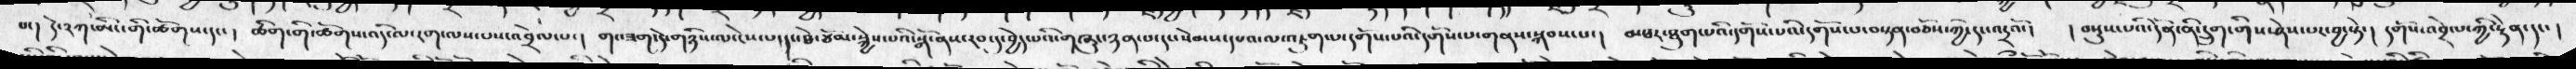པ་།  དེ་༢ཀ་མིང་གི་ཚོགས་དང་། ཚིག་གི་ཚོགས་འདི་རག་ལས་པས་འབྲེལ་པ་། གང་ཟག་དེ་གཉིས་ལ་ངེས་པ་དང་ཐེ་ཚོམ་སྐྱེས་པི་སྒོ་ནས་རབ་དུ་བྱེད་པའི་གཞུང་ཉན་པ་དང་སེམས་དཔའ་ལ་འཇུག་པ་དགོས་པའི་དགོས་པ་གནས་སྐབས་པ་།  མཐར་ཐུག་པའི་དགོས་པའི་དགོས་པ་བསྟན་བཅོས་ཀྱེ་དང་འདྲའོ་།  ། བསྡུས་པའི་དོན་དྲུག་གིས་ཉེས་པར་བྱ་སྟེ་།  དགོས་འབྲེལ་ཀྱི་རྟེན་དང་།
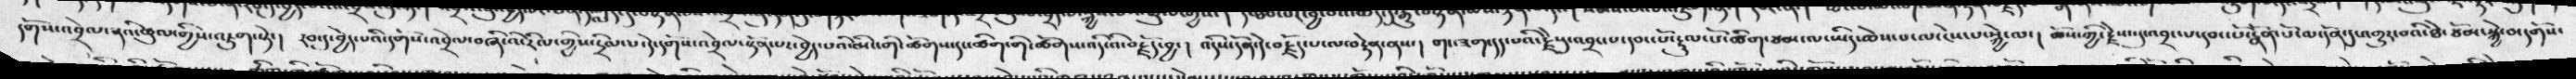དགོས་འབྲེལ་སྣའི་ཚུལ་གྱིས་འཇུག་སྟེ་།  རབ་དུ་བྱེད་པའི་དགོས་འབྲེལ་བཞིའི་རིལ་གྱིས་དྲིལ་པ་དེ་དགོས་འབྲེལ་སྟོན་པར་བྱེད་པའི་མིང་གི་ཚོགས་དང་ཚིག་གི་ཚོགས་འདི་འི་བརྗོད་བྱ་།  འདིས་དོན་དེ་བརྗོད་པ་ལ་བརྟེན་ནས་།  གང་ཟག་དད་པའི་རྗེས་སུ་འབྲང་པ་དབང་པོ་རྟུལ་པོ་ཚིག་ཙམ་ལ་ཡིད་ཆེས་པ་ལ་ངེས་པ་སྐྱེ་ལ་།  ཆོས་ཀྱི་རྗེས་སུ་འབྲང་པ་དབང་པོ་རྣོན་པོ་ལ་དོན་དུ་འགྱུར་བའི་ཐེ་ཚོམ་སྐྱེ་བ་དགོས་
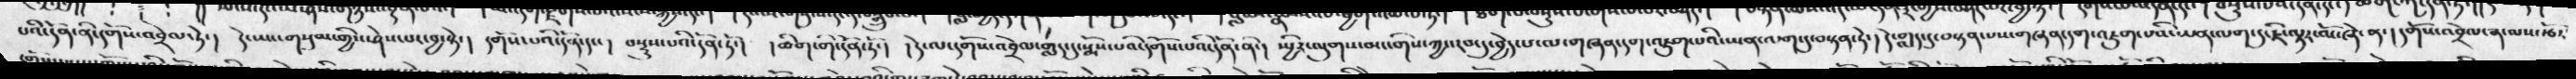པའི་དོན་ནི་དགོས་འབྲེལ་ཏེ་།  དེ་ཡང་གསུམ་གྱིས་ཤེས་པར་བྱ་སྟེ་།  དགོས་པའི་དོན་དང་།  བསྡུས་པའི་དོན་ཏོ་།  །ཚིག་གི་དོན་ཏོ་།  །དེ་ལ་དགོས་འབྲེལ་གླད་དུ་སྨོས་པའི་དགོས་པའི་དོན་ནི་།  སྤྱིར་ལུགས་མང་གིས་ཀྱང་རབ་དུ་བྱེད་པ་ལ་གཞན་དག་འཇུག་པའི་ཡན་ལག་དུ་བསྟན་ཏེ་།  དེ་གླད་དུ་བསྟན་པས་གཞན་དག་འཇུག་པའི་ཡན་ལག་དུ་ཇི་ལྟར་མོ་ཞེ་ན་།  དགོས་འབྲེལ་སྣ་ལས་རྩོར
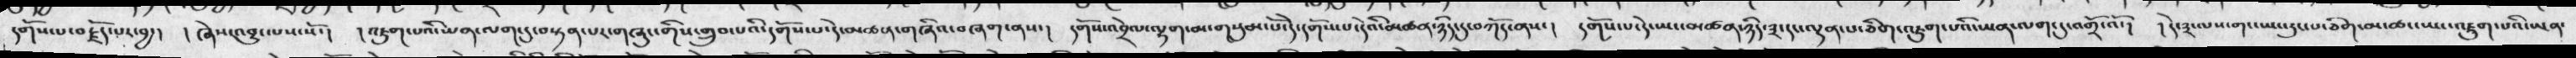དགོས་པ་བརྗོད་པར་བྱ་།  ། ཞེས་འབྱུང་པས་སོ་།  ། འཇུག་པའི་ཡན་ལག་དུ་བསྟན་པར་གཞུང་གིས་གྲུབ་པའི་དགོས་པ་དེ་མཚན་གཞིའ་བཞག་ནས་།  དགོས་འབྲེལ་ལྷག་མ་གསུམ་པོ་དེ་དགོས་པ་དེའི་མཚན་ཉིད་དུ་བཀོད་ནས་།  དགོས་པ་དེ་ཡང་མཚན་ཉིད་༣་དང་ལྡན་པ་ཅིག་འཇུག་པའི་ཡན་ལག་དུ་འགྲོ་འོ་།  ། དེ་༣་ལས་གང་ཡང་རུང་པ་ཅིག་མ་ཚང་ཡང་འཇུག་པའི་ཡན་
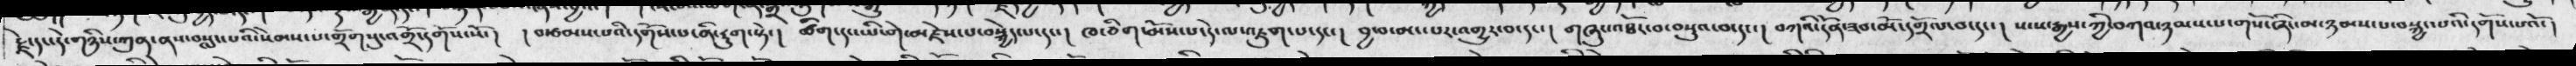རྗེ་དང་དེ་གཉིས་ཀུན་ནས་བསླང་པའི་སེམས་པ་གྲོགསུ་འགྲོ་དགོས་སོ་།  ། བརྩམས་པའི་དགོས་པ་ནི་རྡུག་སྟེ་། ཚིག་དང་ཡི་གེ་མཛེས་པ་བསྐྱེད་པ་དང་།  ཁ་ཅིག་མོས་པ་དེ་ལ་འཇུག་པ་དང་།  བྱ་བ་མང་པར་འགྱུར་བ་དང་།  གཞུང་མཐོང་བ་བསྡུའ་བ་དང་།  བཀའི་དོན་ཟབ་མོ་དགྲོལ་བ་དང་།  སདྱས་ཀྱི་བཀའ་ཉམས་པ་གསོ་ཞིང་མ་ཉམས་པ་བསྐྱང་པའི་དགོས་པའོ་།
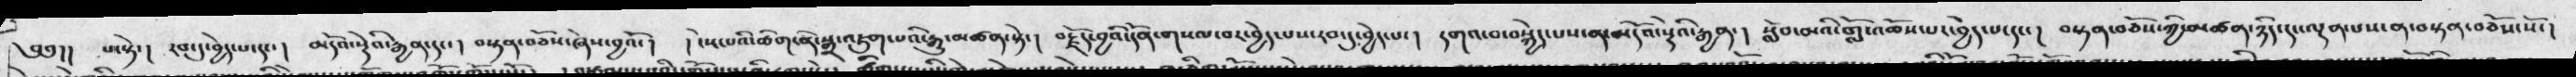༄༅།།  པ་སྟེ་།  རབ་དུ་བྱེད་པ་དང་།  མདོའ་སྡེའི་རྒྱན་དང་།  བསྟན་བཅོས་ཞེས་བྱའོ་།  ། ངེས་པའི་ཚིག་ནི་སྒྲ་འཇུག་པའི་རྒྱུ་མཚན་སྟེ་།  བརྗོད་བྱའི་དོན་གསལ་བར་བྱེད་པས་རབ་དུ་བྱེད་པ་།  དགའ་བ་བསྐྱེད་པས་ནན་མདོའ་སྡེའི་རྒྱན་།  སློབ་མའི་གློ་འཆོས་པར་བྱེད་པ་དང་།  བསྟན་བཅོས་ཀྱི་མཚན་ཉིད་དང་ལྡན་པས་ན་བསྟན་བཅོས་སོ་།
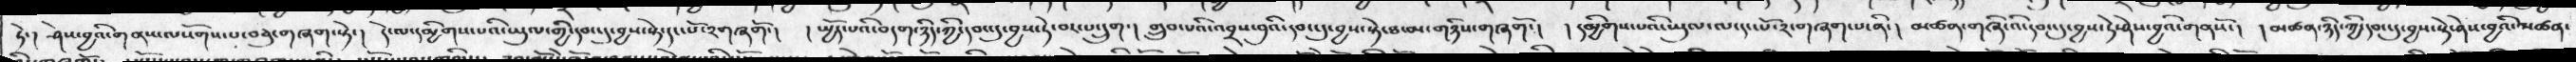ཏེ་།  ཤེས་བྱའི་གནས་ལསོགས་པ་བཅུ་གཞག་སྟེ་།  དེ་ལ་དམྱིགས་པའི་ཡུལ་གྱི་དབང་དུ་བྱས་སྟེ་དང་པོ་༢གཞགོ་།   ། སྤྱོད་བདག་ཉིད་ཀྱི་དབང་དུ་བྱས་ཏེ་བར་པ་དྲུག་།  གྲུབ་པའི་འབྲས་བུའི་དབང་དུ་བྱས་སྟེ་ཐ་མ་གཉིས་གཞག་གོ་།   ། དམྱིགས་པའི་ཡུལ་ལ་དང་པོ་༢་གཞག་པ་ནི་།  མཚན་གཞི་འི་དབང་དུ་བྱས་དེ་ཤེས་བྱའི་གནསོ་།  ། མཚན་ཉིད་ཀྱི་དབང་དུ་བྱས་སྟེ་ཤེས་བའི་མཚན་
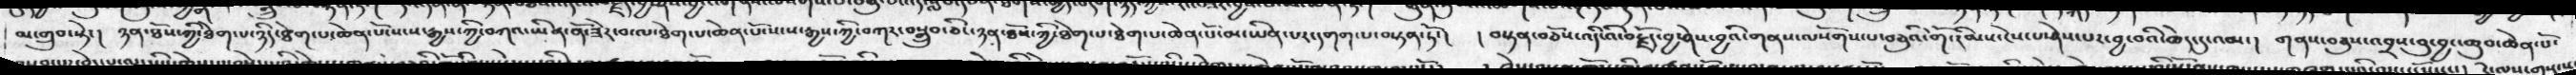མ་གྲུབ་སྟེ་།  ཉན་ཐོས་ཀྱི་ཐེག་པ་ཉིད་ཐེག་པ་ཆེན་པོ་སངས་རྒྱས་ཀྱི་བཀའ་ཡིན་ནོ་ཟེར་བ་ལ་ཐེག་པ་ཆེན་པོ་སངས་རྒྱས་ཀྱི་བཀར་བསྒྲུབ་ཅིང་ཉན་ཐོས་ཀྱི་ཐེག་པ་ཐེག་པ་ཆེན་པོ་མ་ཡིན་པར་དགག་པ་བསྟན་ཏོ་།  ། བསྟན་བཅོས་འདིའི་བརྗོད་བྱ་ཤེས་བྱའི་གནས་ལསོགས་པ་བཅུའི་གོ་རིམས་ངེས་པ་ཤེས་པར་བྱ་བའི་ཆེད་དུ་འམ་།  གནས་བཅུས་འབྲས་བུ་བྱང་ཆུབ་ཆེན་པོ་
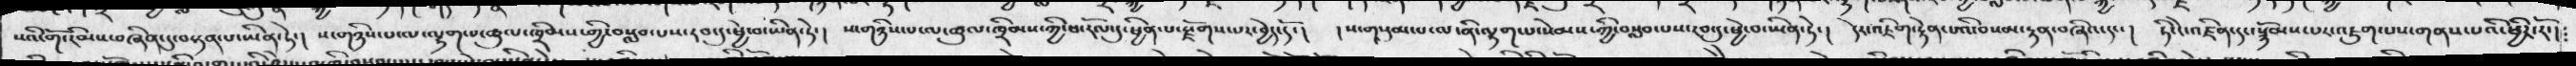སའི་གོ་རིམས་བཞིན་དུ་བསྟན་པ་ཡིན་ཏེ་།  ས་གཉིས་པ་ལ་ལྷག་པ་ཚུལ་ཁྲིམས་གྱི་བསླབ་པས་རབ་དུ་ཕྱེ་བ་ཡིན་ཏེ་།  ས་གཉིས་པ་ལ་ལྷག་པ་ཚུལ་ཁྲིམས་ཀྱི་བསླམ་པས་རབ་དུ་ཕྱེ་བ་ཡིན་དེ་།  ས་གཉིས་པ་ལ་ཚུལ་ཁྲིམས་ཀྱི་ཕ་རོལ་དུ་ཕྱིན་པ་རྫོགས་པར་བྱེད་དོ་།  ། ས་གསུམ་པ་ལ་ནི་ལྷག་པ་སེམས་ཀྱི་བསླབ་པས་རབ་དུ་ཕྱེ་བ་ཡིན་ཏེ་།  དེར་འཇིག་རྟེན་པའི་བསམ་རྟན་བཞིའ་དང་།  ཏིང་ངེ་འཛིན་དང་སྙོམས་པར་འཇུག་པས་གནས་པའི་ཕྱིར་རོ་།
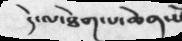དེ་ལ་ཐེག་པ་ཆེན་པོ
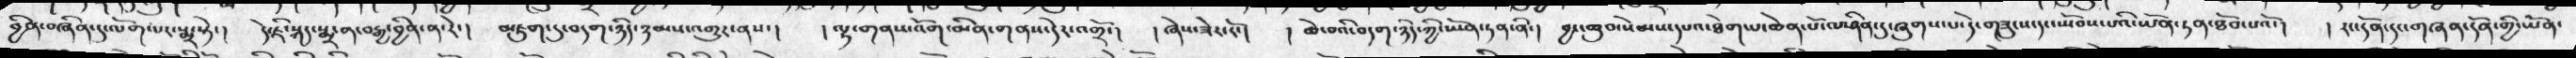བྱིན་བཞིན་དུ་ལོག་པར་སྨྲ་སྟེ་།  དེ་ཇི་སྐད་སྨྲ་ན་བརྒྱ་བྱིན་ན་རེ་།  མཇུག་དུ་བདག་ཉིད་ཉམས་འགྱུར་ནས་།  ། ལྷ་གནས་འོག་མིན་གནས་དེར་འགྲོ་།  ། ཞེས་ཟེར་རོ་།  ། ཆེ་བའི་བདག་ཉིད་ཀྱི་ཡོན་ཏན་ནི་།  བྱང་ཆུབ་སེམས་དཔའ་ཐེག་པ་ཆེན་པོ་ལ་ཤིན་དུ་ཞུགས་པ་དེ་གཟུངས་དང་སྤོབས་པའི་ཡོན་ཏན་ཐོབ་པའོ་།  ། རང་དོན་དང་གཞན་དོན་གྱི་ཡོན་
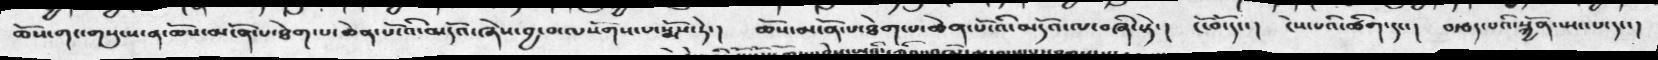ཆོས་གང་གསུངས་ན་ཆོས་མངོན་པ་ཐེག་པ་ཆེན་པོ་འི་མདོའ་ཞེས་བྱ་བ་ལསོགས་པ་སྨོས་ཏེ་།  ཆོས་མངོན་པ་ཐེག་པ་ཆེན་པོ་འི་མདོའ་ལ་བཞི་སྟེ་།   ངོ་བོ་དང་།  ངེས་པའི་ཚིག་དང་།   བརྩད་པའི་སྐྱོན་སྤང་པ་དང་།
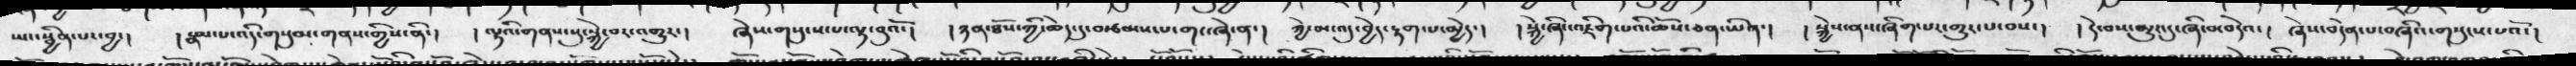ཡང་སྦྱིན་པར་བྱ་།  ། རྣམ་པ་འདི་གསུམ་གནས་གྱིས་ནི་།   ། ལྷའི་གནས་སུ་སྐྱེ་བར་འགྱུར་།  ཞེས་གསུངས་པ་ལྟ་བུའོ་།   ། ཉན་ཐོས་ཀྱི་ཆེད་དུ་བརྩམས་པ་གང་ཞེ་ན་།   ཀྱེ་མ་འདུ་བྱེད་རྟག་པ་མྱེད་།   ། སྐྱེ་ཞིང་འཇིག་པའི་ཆོས་ཅན་ཡིན་།   ། སྐྱེས་ནས་ཞིག་པར་གྱུར་པ་བས་།   ། དེ་བས་མྱུར་དུ་ཞི་བ་བདེའ་།   ཞེས་བདེན་པ་བཞིའ་གསུངས་པའོ་།
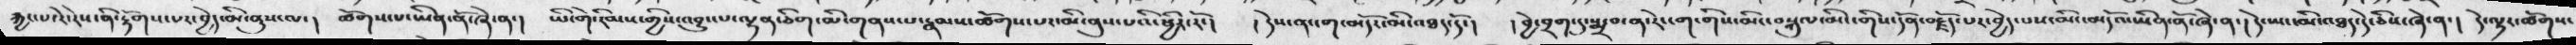རྐྱང་པ་རེ་རེས་ནི་རྟོགས་པར་བྱེད་མི་ནུས་ལ་།  ཚོགས་པ་ཡིན་ནོ་ཞེ་ན་།  ཡི་གེ་རིམས་ཀྱིས་འབྱུངས་པ་ལྷན་ཅིག་མི་གནས་པ་རྣམས་ཚོགས་པར་མི་ནུས་པའི་ཕྱིར་རོ་།  ། དེས་ན་ངག་མདོར་མ་འཐད་དོ་།  ། བྱེ་བྲག་དུ་སྨྲ་བ་ན་རེ་ངག་གིས་མིང་བསྐུལ་མིང་གིས་དོན་བརྗོད་པར་བྱེད་པས་མི་མདོའ་ཡིན་ནོ་ཞེ་ན་།  དེ་ཡང་མི་འཐད་དེ་ཅིས་ཞེ་ན་།  དེ་ལྟར་ཚོགས་
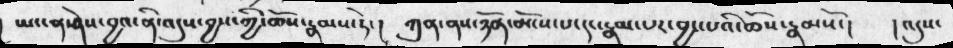ཡང་ན་ཤེས་བྱའ་ནི་འདུས་བྱས་ཀྱི་ཆོས་རྣམས་ཏེ་།  ཀུན་ནས་ཉོན་མོངས་པ་དང་རྣམ་པར་བྱང་པའི་ཆོས་རྣམསོ་།  །འདུས་
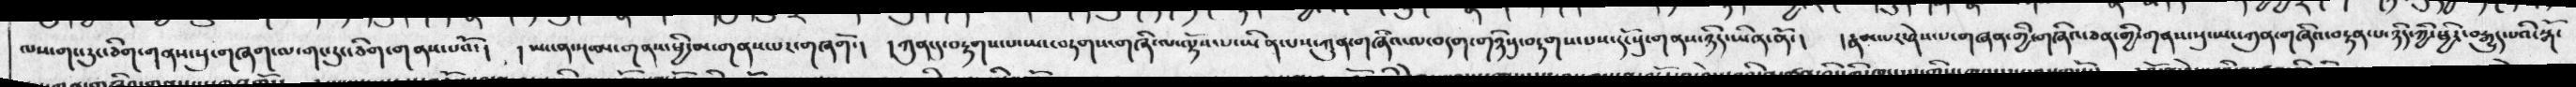ལས་གང་རུང་ཅིག་གནས་སུ་གཞག་ལ་གང་རུང་ཅིག་གནས་པའོ་།  ཡང་ན་སྔ་མ་གནས་ཕྱི་མ་གནས་པར་གཞགོ་།  །ཀུན་དུ་བརྟགས་པ་ཡང་བཏགས་གཞི་ལ་ལྟོས་པ་ཡིན་པས་ཀུན་གཞིའ་ལ་བདག་གཉིས་སུ་བརྟགས་པས་དངོསུ་གནས་ཉིད་ཡིན་ནོ་།  །རྣམ་པར་ཤེས་པ་གཞན་གྱི་གཞིའ་ཅན་གྱི་གནས་སུ་ཡང་ཀུན་གཞིའ་བརྟན་པ་ཉིད་ཀྱི་ཕྱིར་བརྒྱུད་པའི་སྒོ་
